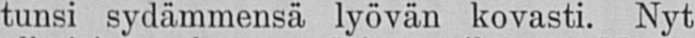tunsi sydämmensä lyövän kovasti. Nyt
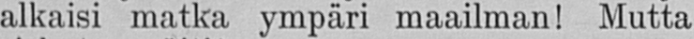alkaisi matka ympäri maailman! Mutta
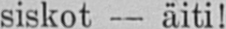siskot - äiti!
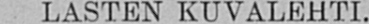LASTEN KUVALEHTI.
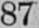87
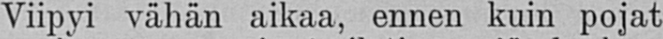Viipyi vähän aikaa, ennen kuin pojat
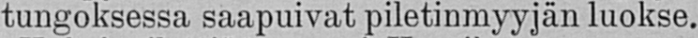tungoksessa saapuivat piletinmyyjän luokse.
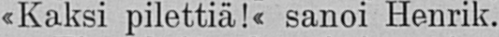«Kaksi pilettiä!« sanoi Henrik.
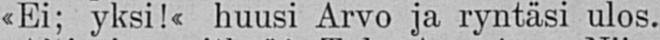«Ei; yksi!« huusi Arvo ja ryntäsi ulos.
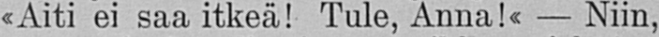«Aiti ei saa itkeä! Tule, Anna!« — Niin,
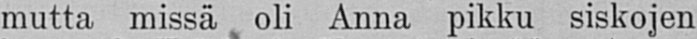mutta missä oli Anna pikku siskojen
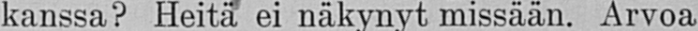kanssa? Heitä ei näkynyt missään. Arvoa
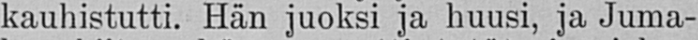kauhistutti. Hän juoksi ja huusi, ja Juma-
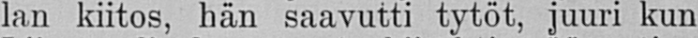lan kiitos, hän saavutti tytöt, juuri kun
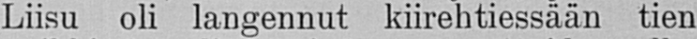Liisu oli langennut kiirehtiessään tien
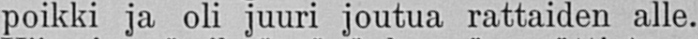poikki ja oli juuri joutua rattaiden alle.
